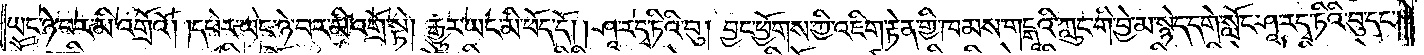ཡང་ཉེ་བར་མི་འགྲོའོ། །དཔེར་ཡང་ཉེ་བར་མི་འགྲོ་སྟེ། རྒྱུར་ཡང་མི་ཕོད་དོ། །ཤཱ་ར་དྭ་ཏིའི་བུ། བྱང་ཕྱོགས་ཀྱི་འཇིག་རྟེན་གྱི་ཁམས་གངྒཱའི་ཀླུང་གི་བྱེ་མ་སྙེད་དགེ་སློང་ཤཱ་རདྭ་ཏིའི་བུ་དང༌།
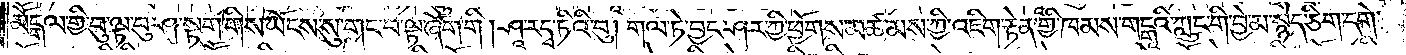མཽདྒལ་གྱི་བུ་ལྟ་བུ་ཤ་སྟག་གིས་ཡོངས་སུ་གང་བ་ལྟ་ཞོག་གི། ཤཱ་རདྭ་ཏིའི་བུ། གལ་ཏེ་བྱང་ཤར་ཀྱི་ཕྱོགས་མཚམས་ཀྱི་འཇིག་རྟེན་གྱི་ཁམས་གངྒཱའི་ཀླུང་གི་བྱེ་མ་སྙེད་ཅིག་དགེ་
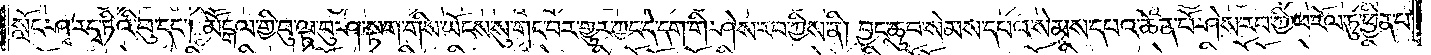སློང་ཤཱ་ར་དྭ་ཏིའི་བུ་དང༌། མཽདྒལ་གྱི་བུ་ལྟ་བུ་ཤ་སྟག་གིས་ཡོངས་སུ་གང་བར་གྱུར་ཀྱང་དེ་དག་གི་ཤེས་རབ་ཀྱིས་ནི། བྱང་ཆུབ་སེམས་དཔའ་སེམས་དཔའ་ཆེན་པོ་ཤེས་རབ་ཀྱི་ཕ་རོལ་ཏུ་ཕྱིན་པ་
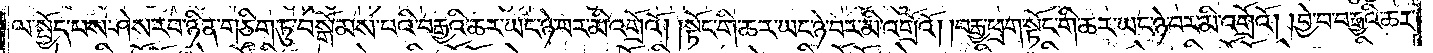ལ་སྤྱོད་པས་ཤེས་རབ་ཉིན་གཅིག་ཏུ་བསྒོམས་པའི་བརྒྱའི་ཆར་ཡང་ཉེ་བར་མི་འགྲོའོ། །སྟོང་གི་ཆར་ཡང་ཉེ་བར་མི་འགྲོའོ། །བརྒྱ་ཕྲག་སྟོང་གི་ཆར་ཡང་ཉེ་བར་མི་འགྲོའོ། །བྱེ་བ་བརྒྱའི་ཆར་
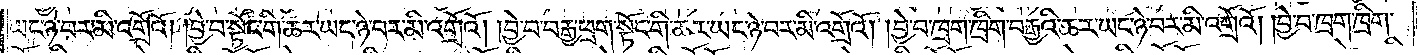ཡང་ཉེ་བར་མི་འགྲོའོ། །བྱེ་བ་སྟོང་གི་ཆར་ཡང་ཉེ་བར་མི་འགྲོའོ། །བྱེ་བ་བརྒྱ་ཕྲག་སྟོང་གི་ཆར་ཡང་ཉེ་བར་མི་འགྲོའོ། །བྱེ་བ་ཁྲག་ཁྲིག་བརྒྱའི་ཆར་ཡང་ཉེ་བར་མི་འགྲོའོ། །བྱེ་བ་ཁྲག་ཁྲིག་
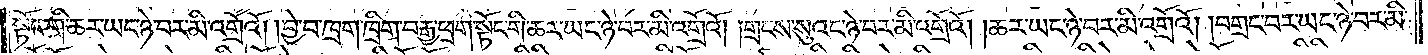སྟོང་གི་ཆར་ཡང་ཉེ་བར་མི་འགྲོའོ། །བྱེ་བ་ཁྲག་ཁྲིག་བརྒྱ་ཕྲག་སྟོང་གི་ཆར་ཡང་ཉེ་བར་མི་འགྲོའོ། །གྲངས་སུའང་ཉེ་བར་མི་འགྲོའོ། །ཆར་ཡང་ཉེ་བར་མི་འགྲོའོ། །བགྲང་བར་ཡང་ཉེ་བར་མི་
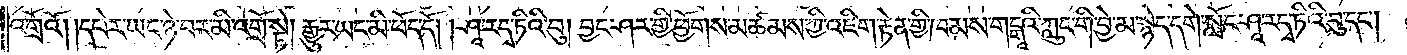འགྲོའོ། །དཔེར་ཡང་ཉེ་བར་མི་འགྲོ་སྟེ། རྒྱུར་ཡང་མི་ཕོད་དོ། །ཤཱ་ར་དྭ་ཏིའི་བུ། བྱང་ཤར་གྱི་ཕྱོགས་མཚམས་ཀྱི་འཇིག་རྟེན་གྱི་ཁམས་གངྒཱའི་ཀླུང་གི་བྱེ་མ་སྙེད་དགེ་སློང་ཤཱ་ར་དྭ་ཏིའི་བུ་དང༌།
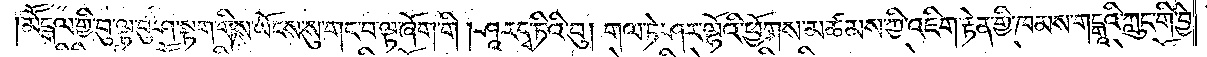མཽདྒལ་གྱི་བུ་ལྟ་བུ་ཤ་སྟག་གིས་ཡོངས་སུ་གང་བ་ལྟ་ཞོག་གི། ཤཱ་ར་དྭ་ཏིའི་བུ། གལ་ཏེ་ཤར་ལྷོའི་ཕྱོགས་མཚམས་ཀྱི་འཇིག་རྟེན་གྱི་ཁམས་གངྒཱའི་ཀླུང་གི་བྱེ་
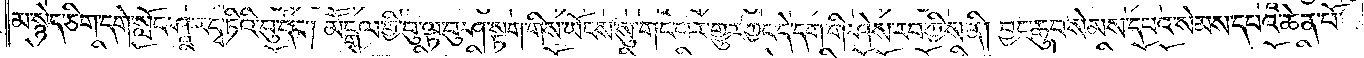མ་སྙེད་ཅིག་དགེ་སློང་ཤཱ་ར་དྭ་ཏིའི་བུ་དང༌། མཽདྒལ་གྱི་བུ་ལྟ་བུ་ཤ་སྟག་གིས་ཡོངས་སུ་གང་བར་གྱུར་ཀྱང་དེ་དག་གི་ཤེས་རབ་ཀྱི་ས་ནི། བྱང་ཆུབ་སེམས་དཔའ་སེམས་དཔའ་ཆེན་པོ་
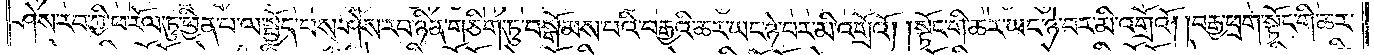ཤེས་རབ་ཀྱི་ཕ་རོལ་ཏུ་ཕྱིན་པ་ལ་སྤྱོད་པས་ཤེས་རབ་ཉིན་གཅིག་ཏུ་བསྒོམས་པའི་བརྒྱའི་ཆར་ཡང་ཉེ་བར་མི་འགྲོའོ། །སྟོང་གི་ཆར་ཡང་ཉེ་བར་མི་འགྲོའོ། །བརྒྱ་ཕྲག་སྟོང་གི་ཆར་
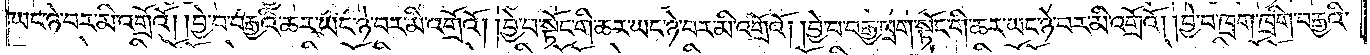ཡང་ཉེ་བར་མི་འགྲོའོ། །བྱེ་བ་བརྒྱའི་ཆར་ཡང་ཉེ་བར་མི་འགྲོའོ། །བྱེ་བ་སྟོང་གི་ཆར་ཡང་ཉེ་བར་མི་འགྲོའོ། །བྱེ་བ་བརྒྱ་ཕྲག་སྟོང་གི་ཆར་ཡང་ཉེ་བར་མི་འགྲོའོ། །བྱེ་བ་ཁྲག་ཁྲིག་བརྒྱའི་
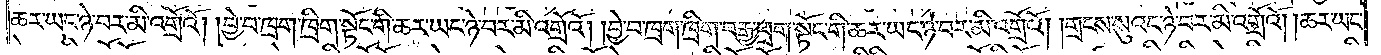ཆར་ཡང་ཉེ་བར་མི་འགྲོའོ། །བྱེ་བ་ཁྲག་ཁྲིག་སྟོང་གི་ཆར་ཡང་ཉེ་བར་མི་འགྲོའོ། །བྱེ་བ་ཁྲག་ཁྲིག་བརྒྱ་ཕྲག་སྟོང་གི་ཆར་ཡང་ཉེ་བར་མི་འགྲོའོ། །གྲངས་སུའང་ཉེ་བར་མི་འགྲོའོ། །ཆར་ཡང་
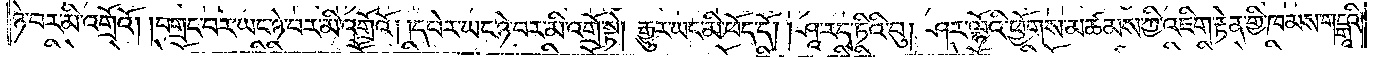ཉེ་བར་མི་འགྲོའོ། །བགྲང་བར་ཡང་ཉེ་བར་མི་འགྲོའོ། །དཔེར་ཡང་ཉེ་བར་མི་འགྲོ་སྟེ། རྒྱུར་ཡང་མི་ཕོད་དོ། །ཤཱ་ར་དྭ་ཏིའི་བུ། ཤར་ལྷོའི་ཕྱོགས་མཚམས་ཀྱི་འཇིག་རྟེན་གྱི་ཁམས་གངྒཱའི་
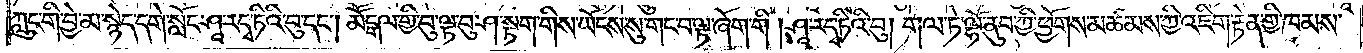ཀླུང་གི་བྱེ་མ་སྙེད་དགེ་སློང་ཤཱ་ར་དྭ་ཏིའི་བུ་དང༌། མཽདྒལ་གྱི་བུ་ལྟ་བུ་ཤ་སྟག་གིས་ཡོངས་སུ་གང་བ་ལྟ་ཞོག་གི །ཤཱ་ར་དྭ་ཏིའི་བུ། གལ་ཏེ་ལྷོ་ནུབ་ཀྱི་ཕྱོགས་མཚམས་ཀྱི་འཇིག་རྟེན་གྱི་ཁམས་
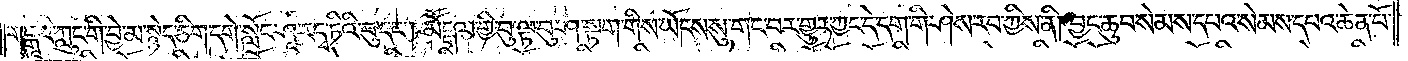གངྒཱའི་ཀླུང་གི་བྱེ་མ་སྙེད་ཅིག་དགེ་སློང་ཤཱ་རདྭ་ཏིའི་བུ་དང༌། མཽདྒལ་གྱི་བུ་ལྟ་བུ་ཤ་སྟག་གིས་ཡོངས་སུ་གང་བར་གྱུར་ཀྱང་དེ་དག་གི་ཤེས་རབ་ཀྱིས་ནི། བྱང་ཆུབ་སེམས་དཔའ་སེམས་དཔའ་ཆེན་པོ་
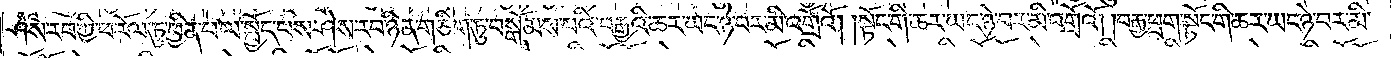ཤེས་རབ་ཀྱི་ཕ་རོལ་ཏུ་ཕྱིན་པ་ལ་སྤྱོད་པས་ཤེས་རབ་ཉིན་གཅིག་ཏུ་བསྒོམས་པའི་བརྒྱའི་ཆར་ཡང་ཉེ་བར་མི་འགྲོའོ། །སྟོང་གི་ཆར་ཡང་ཉེ་བར་མི་འགྲོའོ། །བརྒྱ་ཕྲག་སྟོང་གི་ཆར་ཡང་ཉེ་བར་མི་
